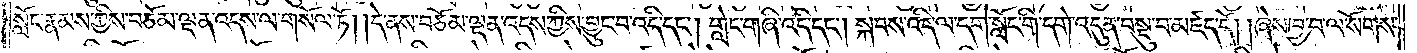སློང་རྣམས་ཀྱིས་བཅོམ་ལྡན་འདས་ལ་གསོལ་ཏོ། །དེ་ནས་བཅོམ་ལྡན་འདས་ཀྱིས་བྱུང་བ་འདི་དང༌། གླེང་གཞི་འདི་དང༌། སྐབས་འདི་ལ་དགེ་སློང་གི་དགེ་འདུན་བསྡུ་བ་མཛད་དོ། །ཞེས་བྱ་བ་ལ་སོགས་
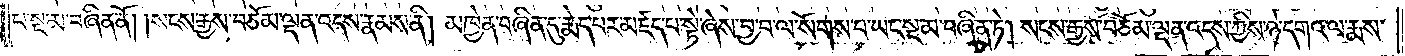པ་སྔ་མ་བཞིན་ནོ། །སངས་རྒྱས་བཅོམ་ལྡན་འདས་རྣམས་ནི། མཁྱེན་བཞིན་དུ་རྨེད་པར་མཛད་པ་སྟེ་ཞེས་བྱ་བ་ལ་སོགས་པ་ཡང་སྔ་མ་བཞིན་ཏེ། སངས་རྒྱས་བཅོམ་ལྡན་འདས་ཀྱིས་ཉེ་དགའ་ལ་རྨས་
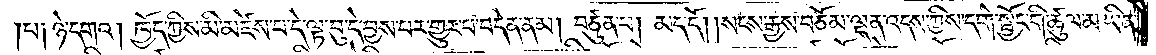པ༑ ཉེ་དགའ། ཁྱོད་ཀྱིས་མི་མཛེས་པ་དེ་ལྟ་བུ་དེ་བྱས་པར་གྱུར་བ་བདེན་ནམ། བཙུན་པ། མད་དོ། །སངས་རྒྱས་བཅོམ་ལྡན་འདས་ཀྱིས་དགེ་སྦྱོང་གི་ཚུལ་མ་ཡིན་
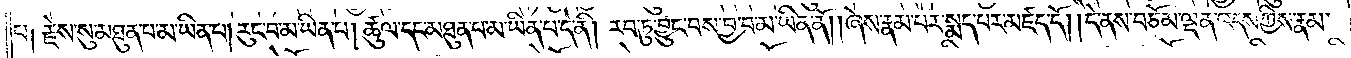པ། རྗེས་སུ་མཐུན་པ་མ་ཡིན་པ། རུང་བ་མ་ཡིན་པ། ཚུལ་དང་མཐུན་པ་མ་ཡིན་པ་དེ་ནི། རབ་ཏུ་བྱུང་བས་བྱ་བ་མ་ཡིན་ནོ། །ཞེས་རྣམ་པར་སྨད་པར་མཛད་དོ། །དེ་ནས་བཅོམ་ལྡན་འདས་ཀྱིས་རྣམ་
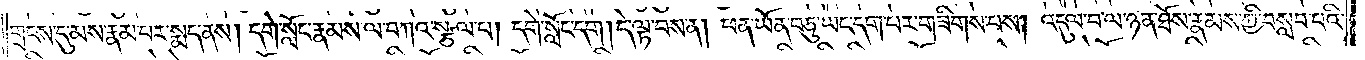གྲངས་དུ་མས་རྣམ་པར་སྨད་ནས། དགེ་སློང་རྣམས་ལ་བཀའ་སྩལ་པ། དགེ་སློང་དག །དེ་ལྟ་བས་ན། ཕན་ཡོན་བཅུ་ཡང་དག་པར་གཟིགས་པས། འདུལ་བ་ལ་ཉན་ཐོས་རྣམས་ཀྱི་བསླབ་པའི་
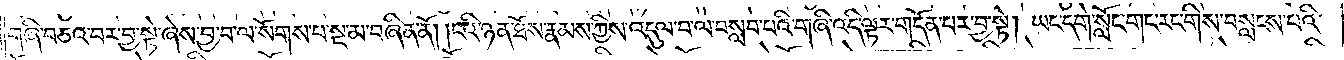གཞི་བཅའ་བར་བྱ་སྟེ་ཞེས་བྱ་བ་ལ་སོགས་པ་སྔ་མ་བཞིན་ནོ། །ངའི་ཉན་ཐོས་རྣམས་ཀྱིས་འདུལ་བ་ལ་བསླབ་པའི་གཞི་འདི་ལྟར་གདོན་པར་བྱ་སྟེ། ཡང་དགེ་སློང་གང་རང་གིས་བསླངས་པའི་
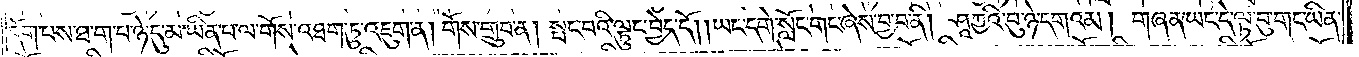དོག་པས་ཐ་ག་པ་ཉེ་དུ་མ་ཡིན་པ་ལ་གོས་འཐག་ཏུ་འཇུག་ན། གོས་གྲུབ་ན། སྤང་བའི་ལྟུང་བྱེད་དོ། །ཡང་དགེ་སློང་གང་ཞེས་བྱ་བ་ནི། ཤཱཀྱའི་བུ་ཉེ་དགའམ། གཞན་ཡང་དེ་ལྟ་བུ་གང་ཡིན་
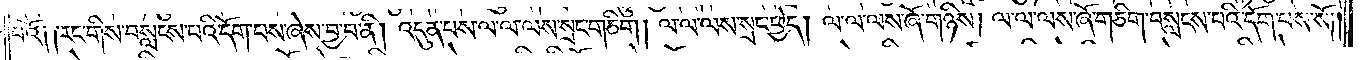པའོ༑ ༑རང་གིས་བསླངས་པའི་དོག་པས་ཞེས་བྱ་བ་ནི། འདུན་པས་ལ་ལ་ལས་སྲང་གཅིག། ལ་ལ་ལས་སྲང་ཕྱེད། ལ་ལ་ལས་ཞོ་གཉིས། ལ་ལ་ལས་ཞོ་གཅིག་བསླངས་པའི་དོག་པས་སོ༎
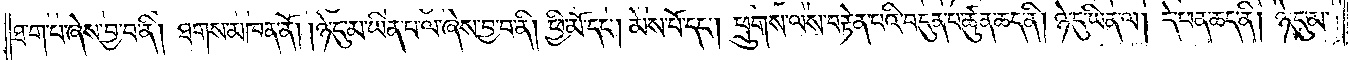ཐ་ག་པ་ཞེས་བྱ་བ་ནི། ཐགས་མཁན་ནོ། །ཉེ་དུ་མ་ཡིན་པ་ལ་ཞེས་བྱ་བ་ནི། ཕྱི་མོ་དང༌། མེས་པོ་དང༌། ཕྲུགས་ལས་བརྟེན་པའི་བདུན་པ་ཚུན་ཆད་ནི། ཉེ་དུ་ཡིན་ལ། དེ་ཕན་ཆད་ནི། ཉེ་དུ་མ་
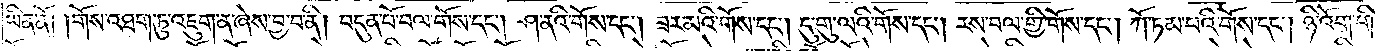ཡིན་ནོ། །གོས་འཐག་ཏུ་འཇུག་ན་ཞེས་བྱ་བ་ནི། བདུན་པོ་བལ་གོས་དང༌། ཤ་ནའི་གོས་དང༌། ཟར་མའི་གོས་དང༌། དུ་གུ་ལའི་གོས་དང༌། རས་བལ་གྱི་གོས་དང༌། ཀོ་ཏམ་པའི་གོས་དང༌། ཉི་འོག་གི་
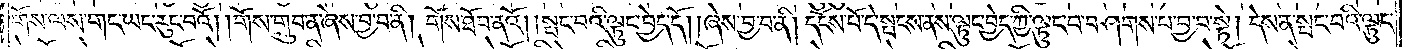གོས་ལས་གང་ཡང་རུང་བའོ། །གོས་གྲུབ་ན་ཞེས་བྱ་བ་ནི། གོས་ཐོབ་ནའོ། །སྤང་བའི་ལྟུང་བྱེད་དོ། །ཞེས་བྱ་བ་ནི། དངོས་པོ་དེ་སྤངས་ནས་ལྟུང་བྱེད་ཀྱི་ལྟུང་བ་བཤགས་པ་བྱ་བ་སྟེ། དེས་ན་སྤང་བའི་ལྟུང་
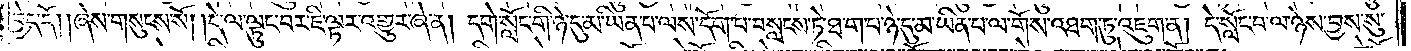བྱེད་དོ། །ཞེས་གསུངས་སོ། །དེ་ལ་ལྟུང་བར་ཇི་ལྟར་འགྱུར་ཞེ་ན། དགེ་སློང་གི་ཉེ་དུ་མ་ཡིན་པ་ལས་དོག་པ་བསླངས་ཏེ་ཐ་ག་པ་ཉེ་དུ་མ་ཡིན་པ་ལ་གོས་འཐག་ཏུ་འཇུག་ན། དེ་སློང་བ་ལ་ཉེས་བྱས་སུ་
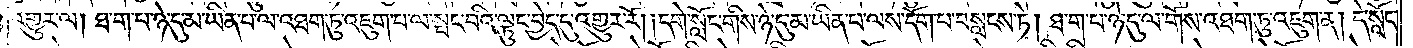འགྱུར་ལ། ཐ་ག་པ་ཉེ་དུ་མ་ཡིན་པ་ལ་འཐག་ཏུ་འཇུག་པ་ལ་སྤང་བའི་ལྟུང་བྱེད་དུ་འགྱུར་རོ། །དགེ་སློང་གིས་ཉེ་དུ་མ་ཡིན་པ་ལས་དོག་པ་བསླངས་ཏེ། ཐ་ག་པ་ཉེ་དུ་ལ་གོས་འཐག་ཏུ་འཇུག་ན། དེ་སློང་
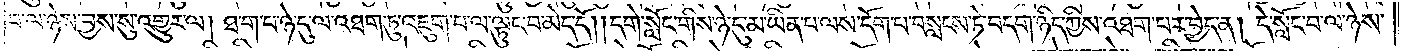བ་ལ་ཉེས་བྱས་སུ་འགྱུར་ལ། ཐ་ག་པ་ཉེ་དུ་ལ་འཐག་ཏུ་འཇུག་པ་ལ་ལྟུང་བ་མེད་དོ། །དགེ་སློང་གིས་ཉེ་དུ་མ་ཡིན་པ་ལས་དོག་པ་བསླངས་ཏེ་བདག་ཉིད་ཀྱིས་འཐག་པར་བྱེད་ན། དེ་སློང་བ་ལ་ཉེས་
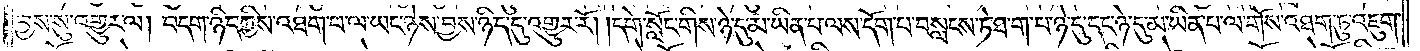བྱས་སུ་འགྱུར་ལ། བདག་ཉིད་ཀྱིས་འཐག་པ་ལ་ཡང་ཉེས་བྱས་ཉིད་དུ་འགྱུར་རོ། །དགེ་སློང་གིས་ཉེ་དུ་མ་ཡིན་པ་ལས་དོག་པ་བསླངས་ཏེ་ཐ་ག་པ་ཉེ་དུ་དང་ཉེ་དུ་མ་ཡིན་པ་ལ་གོས་འཐག་ཏུ་འཇུག་
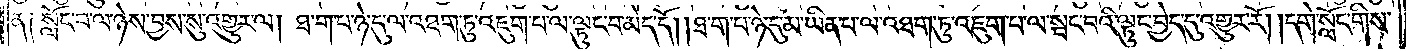ན༑ སློང་བ་ལ་ཉེས་བྱས་སུ་འགྱུར་ལ། ཐ་ག་པ་ཉེ་དུ་ལ་འཐག་ཏུ་འཇུག་པ་ལ་ལྟུང་བ་མེད་དོ། །ཐ་ག་པ་ཉེ་དུ་མ་ཡིན་པ་ལ་འཐག་ཏུ་འཇུག་པ་ལ་སྤང་བའི་ལྟུང་བྱེད་དུ་འགྱུར་རོ། དགེ་སློང་གིས་
